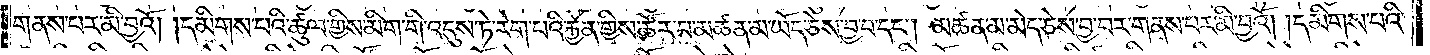གནས་པར་མི་བྱའོ། །དམིགས་པའི་ཚུལ་གྱིས་མིག་གི་འདུས་ཏེ་རེག་པའི་རྐྱེན་གྱིས་ཚོར་བ་མཚན་མ་ཡོད་ཅེས་བྱ་བ་དང༌། མཚན་མ་མེད་ཅེས་བྱ་བར་གནས་པར་མི་བྱའོ། །དམིགས་པའི་
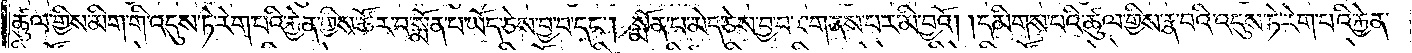ཚུལ་གྱིས་མིག་གི་འདུས་ཏེ་རེག་པའི་རྐྱེན་གྱིས་ཚོར་བ་སྨོན་པ་ཡོད་ཅེས་བྱ་བ་དང༌། སྨོན་པ་མེད་ཅེས་བྱ་བར་གནས་པར་མི་བྱའོ། །དམིགས་པའི་ཚུལ་གྱིས་རྣ་བའི་འདུས་ཏེ་རེག་པའི་རྐྱེན་
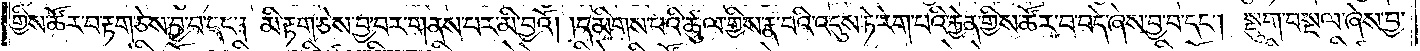གྱིས་ཚོར་བ་རྟག་ཅེས་བྱ་བ་དང༌། མི་རྟག་ཅེས་བྱ་བར་གནས་པར་མི་བྱའོ། །དམིགས་པའི་ཚུལ་གྱིས་རྣ་བའི་འདུས་ཏེ་རེག་པའི་རྐྱེན་གྱིས་ཚོར་བ་བདེ་ཞེས་བྱ་བ་དང༌། སྡུག་བསྔལ་ཞེས་བྱ་
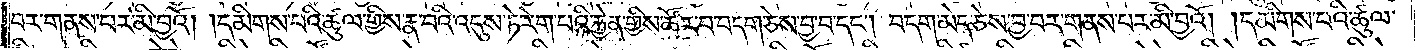བར་གནས་པར་མི་བྱའོ། །དམིགས་པའི་ཚུལ་གྱིས་རྣ་བའི་འདུས་ཏེ་རེག་པའི་རྐྱེན་གྱིས་ཚོར་བ་བདག་ཅེས་བྱ་བ་དང༌། བདག་མེད་ཅེས་བྱ་བར་གནས་པར་མི་བྱའོ། །དམིགས་པའི་ཚུལ་
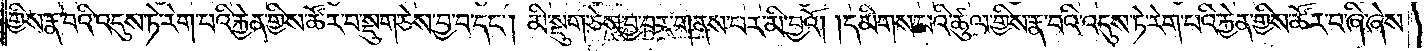གྱིས་རྣ་བའི་འདུས་ཏེ་རེག་པའི་རྐྱེན་གྱིས་ཚོར་བ་སྡུག་ཅེས་བྱ་བ་དང༌། མི་སྡུག་ཅེས་བྱ་བར་གནས་པར་མི་བྱའོ། །དམིགས་པའི་ཚུལ་གྱིས་རྣ་བའི་འདུས་ཏེ་རེག་པའི་རྐྱེན་གྱིས་ཚོར་བ་ཞི་ཞེས་
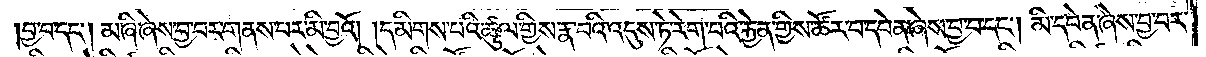བྱ་བ་དང༌། མ་ཞི་ཞེས་བྱ་བར་གནས་པར་མི་བྱའོ། །དམིགས་པའི་ཚུལ་གྱིས་རྣ་བའི་འདུས་ཏེ་རེག་པའི་རྐྱེན་གྱིས་ཚོར་བ་དབེན་ཞེས་བྱ་བ་དང༌། མི་དབེན་ཞེས་བྱ་བར་
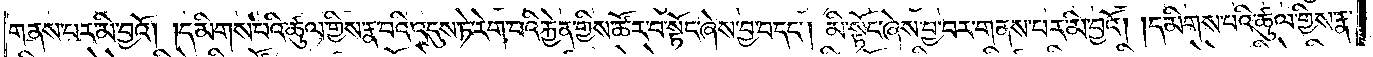གནས་པར་མི་བྱའོ། །དམིགས་པའི་ཚུལ་གྱིས་རྣ་བའི་འདུས་ཏེ་རེག་པའི་རྐྱེན་གྱིས་ཚོར་བ་སྟོང་ཞེས་བྱ་བ་དང༌། མི་སྟོང་ཞེས་བྱ་བར་གནས་པར་མི་བྱའོ། །དམིགས་པའི་ཚུལ་གྱིས་རྣ་
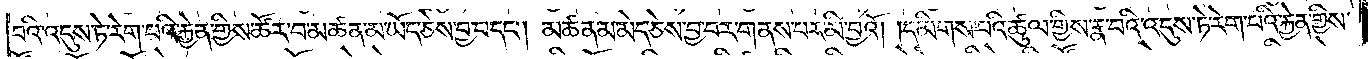བའི་འདུས་ཏེ་རེག་པའི་རྐྱེན་གྱིས་ཚོར་བ་མཚན་མ་ཡོད་ཅེས་བྱ་བ་དང༌། མཚན་མ་མེད་ཅེས་བྱ་བར་གནས་པར་མི་བྱའོ། །དམིགས་པའི་ཚུལ་གྱིས་རྣ་བའི་འདུས་ཏེ་རེག་པའི་རྐྱེན་གྱིས་
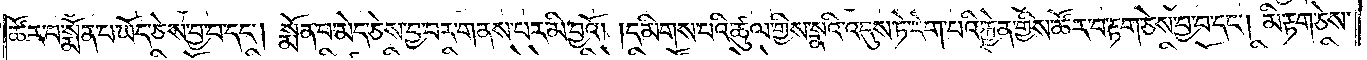ཚོར་བ་སྨོན་པ་ཡོད་ཅེས་བྱ་བ་དང༌། སྨོན་པ་མེད་ཅེས་བྱ་བར་གནས་པར་མི་བྱའོ། །དམིགས་པའི་ཚུལ་གྱིས་སྣའི་འདུས་ཏེ་རེག་པའི་རྐྱེན་གྱིས་ཚོར་བ་རྟག་ཅེས་བྱ་བ་དང༌། མི་རྟག་ཅེས་
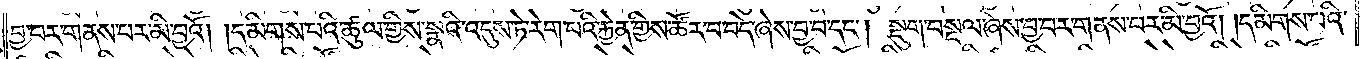བྱ་བར་གནས་པར་མི་བྱའོ། །དམིགས་པའི་ཚུལ་གྱིས་སྣའི་འདུས་ཏེ་རེག་པའི་རྐྱེན་གྱིས་ཚོར་བ་བདེ་ཞེས་བྱ་བ་དང༌། སྡུག་བསྔལ་ཞེས་བྱ་བར་གནས་པར་མི་བྱའོ། །དམིགས་པའི་
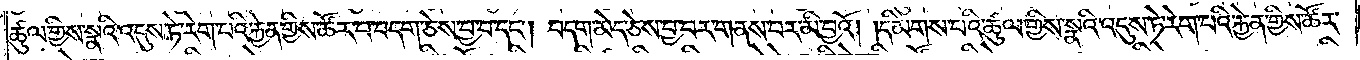ཚུལ་གྱིས་སྣའི་འདུས་ཏེ་རེག་པའི་རྐྱེན་གྱིས་ཚོར་བ་བདག་ཅེས་བྱ་བ་དང༌། བདག་མེད་ཅེས་བྱ་བར་གནས་པར་མི་བྱའོ། །དམིགས་པའི་ཚུལ་གྱིས་སྣའི་འདུས་ཏེ་རེག་པའི་རྐྱེན་གྱིས་ཚོར་
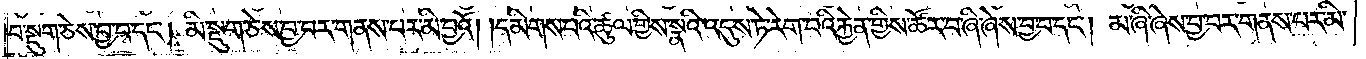བ་སྡུག་ཅེས་བྱ་བ་དང༌། མི་སྡུག་ཅེས་བྱ་བར་གནས་པར་མི་བྱའོ། །དམིགས་པའི་ཚུལ་གྱིས་སྣའི་འདུས་ཏེ་རེག་པའི་རྐྱེན་གྱིས་ཚོར་བ་ཞི་ཞེས་བྱ་བ་དང༌། མ་ཞི་ཞེས་བྱ་བར་གནས་པར་མི་
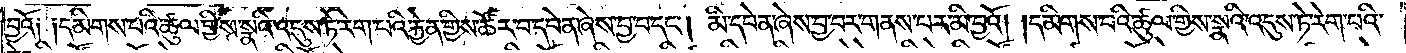བྱའོ། །དམིགས་པའི་ཚུལ་གྱིས་སྣའི་འདུས་ཏེ་རེག་པའི་རྐྱེན་གྱིས་ཚོར་བ་དབེན་ཞེས་བྱ་བ་དང༌། མི་དབེན་ཞེས་བྱ་བར་གནས་པར་མི་བྱའོ། །དམིགས་པའི་ཚུལ་གྱིས་སྣའི་འདུས་ཏེ་རེག་པའི་
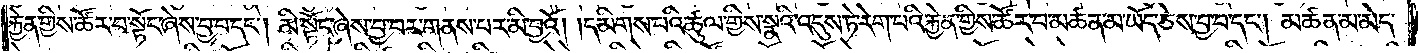རྐྱེན་གྱིས་ཚོར་བ་སྟོང་ཞེས་བྱ་བ་དང༌། མི་སྟོང་ཞེས་བྱ་བར་གནས་པར་མི་བྱའོ། །དམིགས་པའི་ཚུལ་གྱིས་སྣའི་འདུས་ཏེ་རེག་པའི་རྐྱེན་གྱིས་ཚོར་བ་མཚན་མ་ཡོད་ཅེས་བྱ་བ་དང༌། མཚན་མ་མེད་
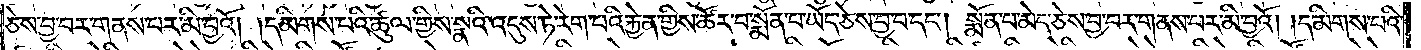ཅེས་བྱ་བར་གནས་པར་མི་བྱའོ། །དམིགས་པའི་ཚུལ་གྱིས་སྣའི་འདུས་ཏེ་རེག་པའི་རྐྱེན་གྱིས་ཚོར་བ་སྨོན་པ་ཡོད་ཅེས་བྱ་བ་དང༌། སྨོན་པ་མེད་ཅེས་བྱ་བར་གནས་པར་མི་བྱའོ། །དམིགས་པའི་
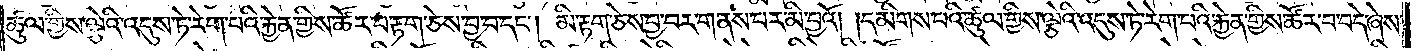ཚུལ་གྱིས་ལྕེའི་འདུས་ཏེ་རེག་པའི་རྐྱེན་གྱིས་ཚོར་བ་རྟག་ཅེས་བྱ་བ་དང༌། མི་རྟག་ཅེས་བྱ་བར་གནས་པར་མི་བྱའོ། །དམིགས་པའི་ཚུལ་གྱིས་ལྕེའི་འདུས་ཏེ་རེག་པའི་རྐྱེན་གྱིས་ཚོར་བ་བདེ་ཞེས་
